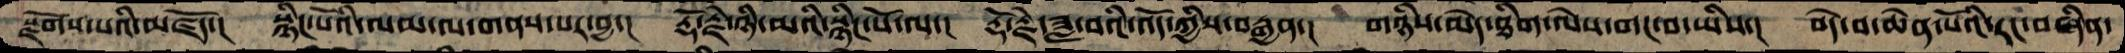སྫོགས་པའི་མཛོད་།  སྙིང་པོའི་ལམ་ལ་གནས་པར་བྱ་།  རྡོ་རྗེ་ཉི་མའི་སྙིང་པོ་ལ་།  རྡོ་རྗེ་ཟླ་བའི་འོད་ཀྱིས་བརྒྱན་།  གཉིས་མེད་ཐིག་ལེས་གང་བ་ཡིས་།  བདེ་བ་ཆེན་པོའི་རང་བཞིན་
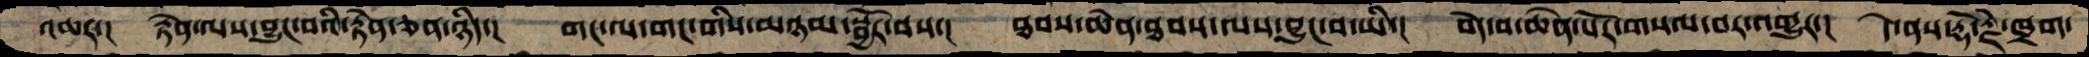འཆར་།  རྟེན་ལས་བྱུང་བའི་རྟེན་ཅན་ཉིད་།  གང་ལ་གང་གིས་མཉམ་སྦྱོར་བས་།  ཐབས་ཆེན་ཐབས་ལས་བྱུང་བ་ཡི་།   བདེ་བ་ཆེན་པོར་གསལ་བར་འགྱུར་།  དེ་ནས་རྡོ་རྗེ་ཁྲག་
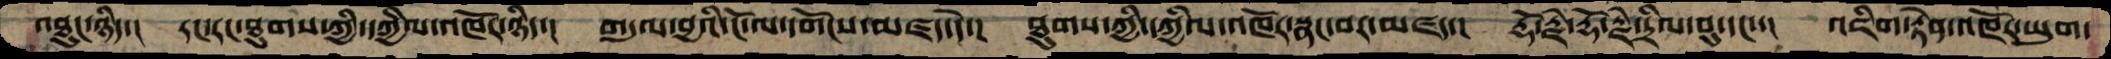འཐུང་ཉིད་།  རང་རང་ཐུགས་ཀྱི་དཀྱིལ་འཁོར་ཉིད་།  གདུལ་བྱའི་ངོ་ལ་དགོངས་མཛད་དེ་།  ཐུགས་ཀྱི་དཀྱིལ་འཁོར་སྣང་བར་མཛད་།  རྡོ་རྗེ་རྡོ་རྗེ་དྲིལ་བུ་དང་་།  འཇིག་རྟེན་འཁོར་ཡུག་
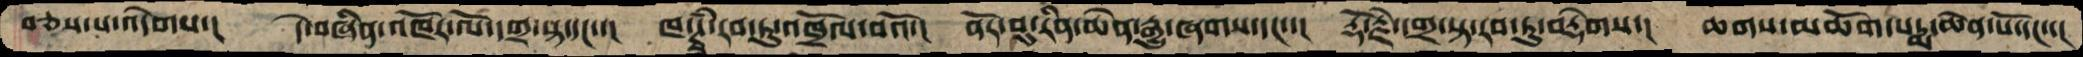བཅས་པ་འདེགས་།  དེ་བཞིན་འཁོར་ལོ་དགྲ་སྟ་དང་་།  ཁ་ཊྭཾ་རབ་ཏུ་འཁྲོལ་བའོ་།  ནོར་བུ་རིན་ཆེན་རྒྱུ་ཞགས་དང་་།  རྡོ་རྗེ་དགྲ་སྟ་རབ་ཏུ་བརྡེགས་།  ཆགས་མཆོག་པདྨ་ཆེན་པོ་དང་་།
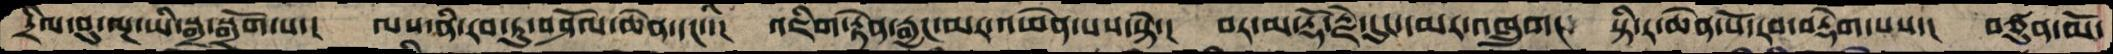དྲིལ་བུ་ལྔ་ཡི་སྒྲ་སྒྲོག་པ་།  ལས་ནི་རབ་ཏུ་བཤོལ་ཆེན་དང་་།  འཇིག་རྟེན་རྒྱང་མར་འཕེན་པས་སྟེ་།  བར་མ་རྡོ་རྗེ་དུང་དམར་འཁྲུག།  སྟི་ར་ཆེན་པོ་རབ་བརྡེག་པས་།  བཙུན་མོ་
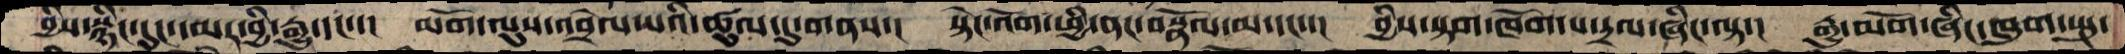བྱིས་སྙིང་དུང་དམར་བྱི་རྒྱུ་དང་་།  མགོ་ལུས་འབྲེལ་པའི་ཚུལ་དུ་གནས་།  སྟེང་འོག་ཕྱི་ནང་བསྣོལ་མ་དང་་།  བྱིས་སྟག་ཁོག་པ་དྲལ་ཞིང་ལྟ་།  རྒྱུ་མགོ་ཞིང་ཁུག་སྤུ་
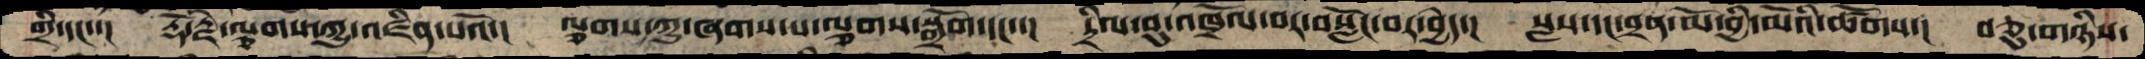གྲི་དང་་།  རྡོ་རྗེ་ལྕགས་ཀྱུ་འཛིན་པའོ་།  ལྕགས་ཀྱུ་ཞགས་པ་ལྕགས་སྒྲོག་དང་་།  དྲིལ་བུ་འཁྲོལ་བར་བསློང་བར་བྱེད་།  སླས་དང་བྲན་མོ་བྱི་མོའི་ཚོགས་།  བཅུ་གཉིས་
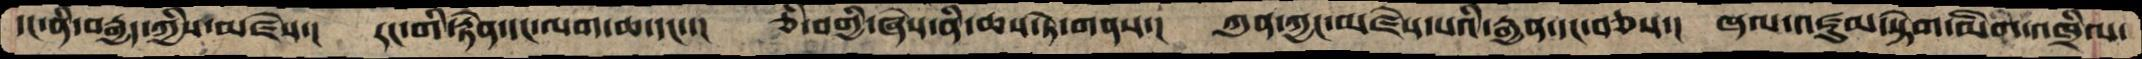དང་ནི་བརྒྱད་ཀྱིས་མཛེས་།  རང་གི་རྟེན་དང་ལག་ཆ་དང་་།  ཅི་བགྱི་ཞེས་ནི་ཆས་ཏེ་གནས་།  ཀུན་ཀྱང་མཛེས་པའི་རྒྱན་དང་བཅས་།  ཞལ་འཛུམ་སྟེག་མིག་འཁྲིལ་
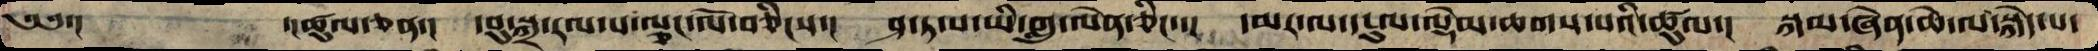༄༅་།         ་།ཚུལ་ཅན་།  དབུ་སྐྲ་རལ་པ་ལྕང་ལོ་བཅིངས་།  ཤ་ཏ་པ་ཡི་གླུ་ལེན་ཅིང་་།   དམར་ལ་དངུལ་ལྡེམ་ཆགས་པའི་ཚུལ་།  སྐམ་ཞེན་ཆེ་ལ་སྐེད་པ་
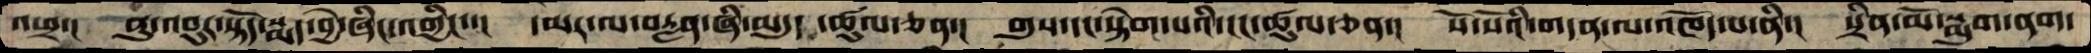འཕྲ་།  ནུ་འབུར་སྟོད་སྨད་བྱེ་ཞིང་འགྱིང་་།  དམར་ལ་བརླན་ཞི་མདུད ་ཚུལ་ཅན་།  གུས་དང་སྟེག་པའི་ངང་ཚུལ་ཅན་།  སོ་སོའི་གདན་ལ་འཁོད་པ་ནི་།  སྲིན་མོ་སྨུག་ནག་
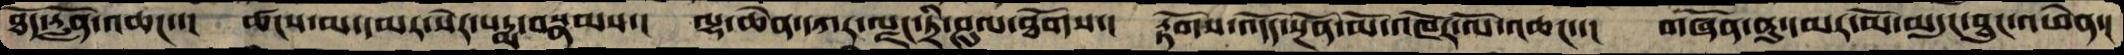ཐོད་རློོན་འཆང་་།  ཚངས་མ་དམར་སེར་པདྨ་བསྣམས་།  ལྷ་ཆེན་དཀར་ལྗང་ཏྲི་ཤུལ་ཐོགས་།  རྟོགས་འདོད་སྔོན་མོ་འཁོར་ལོ་འཆང་་།   གཞོན་ནུ་དམར་མོ་མདུང་ཐུང་འཕེན་།
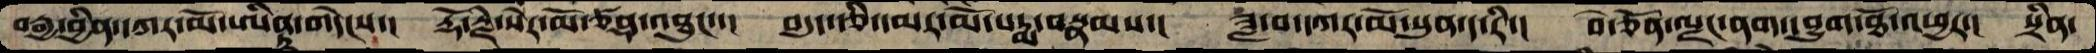བརྒྱ་བྱིན་དཀར་མོ་ཨིནྟ་གདེངས་།  རྡོ་རྗེ་སེར་མོ་ཙནྡ་འཐུང་་།  བདུད་རྩི་དམར་མོ་པདྨ་བསྣམས་།  ཟླ་བ་དཀར་མོ་སུན་ད་རི་།  བེ་ཅོན་ལྗང་ནག་དབྱུག་ཐོ་འཕྱར་།  སྲིན་
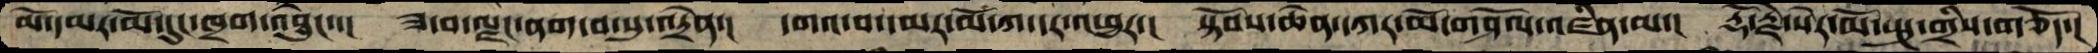མོ་དམར་མོ་དུང་ཁྲག་འཐུང་་།  ཟ་བ་ལྗང་ནག་བ་སུ་འདྲེན་།  དགའ་བ་དམར་མོ་ཀ་དར་འཕྱར་།  སྟོབས་ཆེན་དཀར་མོ་གཤོལ་འཛིན་མ་།  རྡོ་རྗེ་སེར་མོ་སྤུ་གྲིས་གཅོད་།
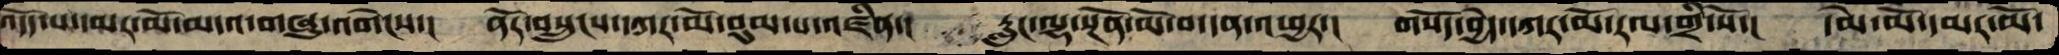འདོད་པ་དམར་མོ་མདའ་གཞུ་འགེངས་།  ནོར་བསྲུངས་དཀར་མོ་བུམ་པ་འཛིན་།།  རླུང་ལྷ་སྔོན་མོ་བ་དན་འཕྱར་།  གསོད་བྱེད་དཀར་མོ་རལ་གྲི་སོ་།  དམེ་མོ་དམར་མོ་
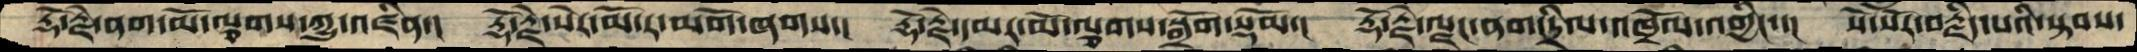རྡོ་རྗེ་ནག་མོ་ལྕགས་ཀྱུ་འཛིན་།  རྡོ་རྗེ་སེར་མོ་ར་མགོ་ཞགས་།  རྡོ་རྗེ་དམར་མོ་ལྕགས་སྒྲོག་སྡོམ་།  རྡོ་རྗེ་ལྗང་ནག་དྲིལ་འཁྲོལ་འགྱིང་་།  སོ་སོར་བརྗིད་པའི་སྟབས་
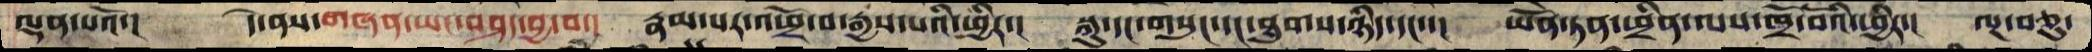ལྡན་པའོ་།  དེ་ནས་གཞན་ཡང་བཤད་བྱ་བ་།  རྣམ་པར་འཕྲོ་བ་རྒྱས་པའི་ཕྱིར་།  སྐུ་དང་གསུང་དང་ཐུགས་ཉིད་དང་་།  ཡོན་ཏན་ཕྲིན་ལས་ཁྲོ་བོའི་ཕྱིར་།  ལྔ་བཅུ་
